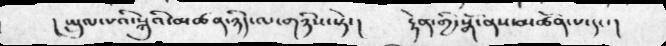།སྤྲུལ་པའི་སྐུའི་མཚན་ཉིད་ལ་གཉིས་སྟེ་།    རྟེན་གྱི་སྒོ་ནས་མཚོན་པ་དང་།
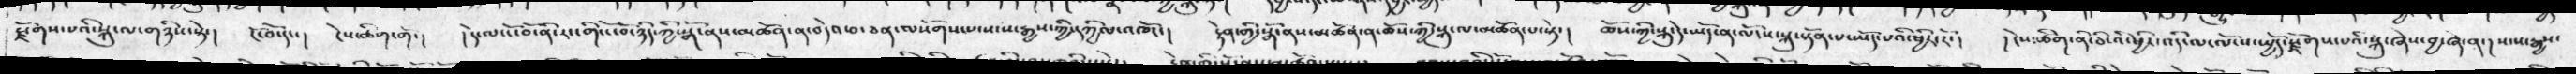རྗོགས་པའི་སྐུ་ལ་གཉིས་སྟེ་། ངོ་བོ་དང་།   ངེས་ཚིག་གོ་།  །དེ་ལ་ངོ་བོ་ནི་རང་གི་ངོ་བོ་ཉིད་ཀྱི་སྒོ་ནས་མཚོན་ན་བདེའ་བ་ཅན་ལསོགས་པ་སངས་རྒྱས་ཀྱི་དཀྱིལ་འཁོང་།  རྟེན་གྱི་སྒོ་ནས་མཚོན་ན་ཆོས་ཀྱི་སྐུ་ལ་མཚོན་པ་སྟེ་།  ཆོས་ཀྱི་སྐུ་དེ་ཡོད་ན་ལོངས་སྐུ་སྟོན་པ་ཡོད་པའི་ཕྱིར་རོ་།   ། ངེས་ཚིག་ནི་ཅི་འི་ཕྱིར་འདི་ལ་ལོངས་ཡྱོད་སྫོགས་པའི་སྐུ་ཞེ་ན་།   སངས་རྒྱས་
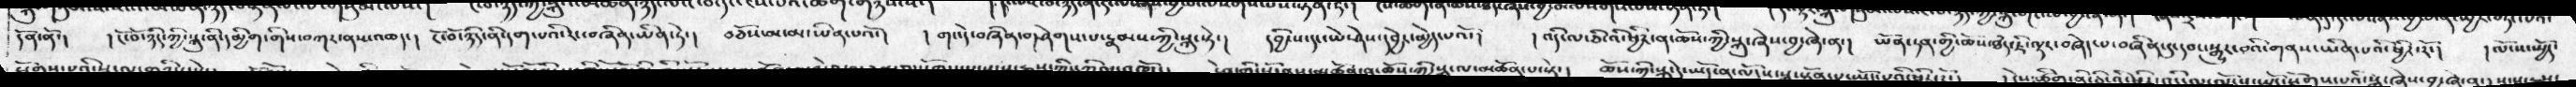དོན་ནོ་།   ། ངོ་བོ་ཉིད་ཀྱི་སྐུ་ནི་དམྱིག་གིས་བཀར་ནས་འཆད་།   ངོ་བོ་ཉིད་ནི་དག་པའི་རང་བཞིན་ཡིན་ཏེ་།  བཅོས་མ་མ་ཡིན་པའོ་།   ། གང་དེ་བཞིན་གཤེགས་པ་རྣམས་ཀྱི་སྐུ་སྟེ་།   དབྱིངས་དང་ཡེ་ཤེས་དབྱེར་མྱེད་པའོ་།   ། འདི་ལ་ཅི་འི་ཕྱིར་ན་ཆོས་ཀྱི་སྐུ་ཞེས་བྱ་ཞེ་ན་།   ཡོན་ཏན་གྱི་ཆོས་ཐཾད་ཇི་ལྟར་བཞེད་པ་བཞེད་པ་བཞིན་དུ་དབང་སྒྱུར་བའི་གནས་ཡིན་པའི་ཕྱིར་རོ་།  ། ལོངས་ཡྱོད་
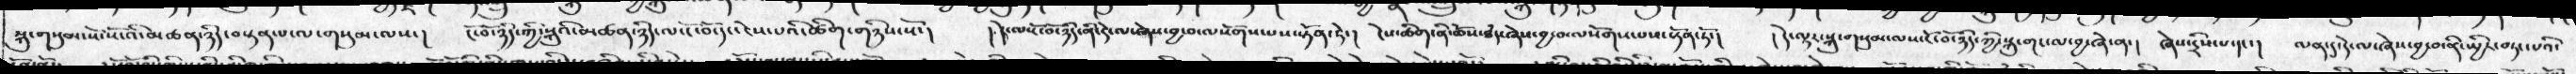སྐུ་གསུམ་སོ་སོ་འི་མཚན་ཉིད་བསྟན་པ་ལ་གསུམ་ལས་།   ངོ་བོ་ཉིད་གྱི་སྐུའི་མཚན་ཉིད་ལ་ངོ་བོ་དང་ངེས་པའི་ཚིག་གཉིས་སོ་།  ། དེ་ལ་ངོ་བོ་ཉིད་ནི་དེ་ལ་ཞེས་བྱ་བ་ལསོགས་པས་སྟོན་ཏེ་།   ངེས་ཚིག་ནི་ཆོས་ཐཾད་ཞེས་བྱ་བ་ལསོགས་པས་སྟོན་ཏོ་།   །  དེ་ལྟར་སྐུ་གསུམ་ལས་ངོ་བོ་ཉིད་ཀྱི་སྐུ་གང་ལ་བྱ་ཞེ་ན་།   ཞེས་དྲིས་པ་དང་།   ལན་དུ་དེ་ལ་ཞེས་བྱ་བ་ནི་ཡྱིར་བཏང་པའི་
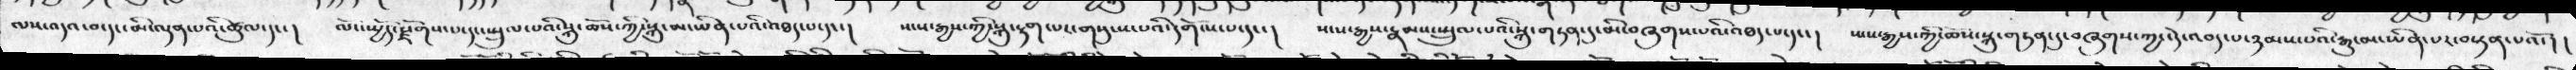ལས་འདའ་བ་དང་མི་ལྡན་པའི་ཚུལ་དང་།  ལོངས་སྤྱོད་རྫོགས་པ་དང་སྤྲུལ་པའི་སྐུ་ཆོས་ཀྱི་སྐུ་མ་ཡིན་པའི་འཐད་པ་དང་།  སངས་རྒྱས་ཀྱི་སྐུ་རྟག་པར་གསུངས་པའི་དགོངས་པ་དང་།   སངས་རྒྱས་རྣམས་སྤྲུལ་པའི་སྐུ་གཏན་དུ་མི་བཞུགས་པའི་འཐད་པ་དང་།  སངས་རྒྱས་ཀྱི་ཆོས་སྐུ་གཏན་དུ་བཞུགས་ཀྱང་དེ་འབད་པ་ཉམས་པའི་རྒྱུ་མ་ཡིན་པར་བསྟན་པའོ་། །
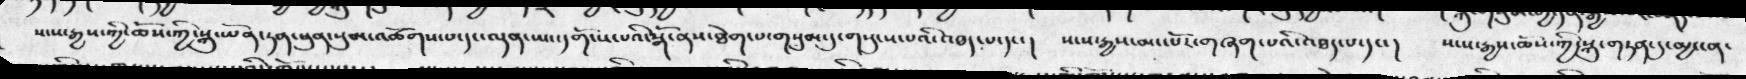སངས་རྒྱས་ཀྱི་ཆོས་ཀྱི་སྐུ་ཡོན་ཏན་ཕུན་སུམ་འཚོགས་པ་དང་ལྡན་ཡང་དགོངས་པའི་སྒོ་ནས་ཐེག་པ་གསུམ་དུ་གསུངས་པའི་འཐད་པ་དང་།  སངས་རྒྱས་མང་པོར་གཞག་པའི་འཐད་པ་དང་།  སངས་རྒྱས་ཆོས་ཀྱི་སྐུ་གཏན་དུ་མྱ་ངན་
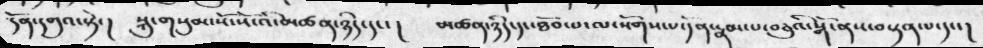དོན་དགུའ་སྟེ་།  སྐུ་གསུམ་སོ་སོ་འི་མཚན་ཉིད་དང་།  མཚན་ཉིད་དང་ཐོབ་པ་ལ་སོགས་པ་དོན་རྣམ་པ་བཅུའི་སྒོ་ནས་བསྟན་པ་དང་།
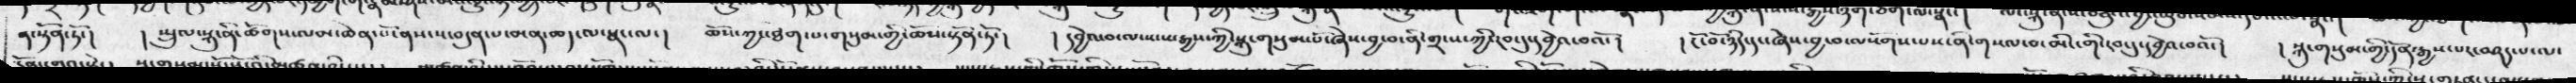ན་སྟོན་ཏོ་།  ། སྤྲུལ་སྐུ་ནི་ཚོགས་ལམ་ཆེན་པོ་ནས་ས་བདུན་པ་མན་ཆད་ལ་སྣང་ལ་།  ཆོས་ཀྱི་ཐེག་པ་གསུམ་གྱི་ཆོས་སྟོན་ཏོ་།  ། དབྱེའ་བ་ལ་སངས་རྒྱས་ཀྱི་སྐུ་གསུམ་པོ་ཞེས་བྱ་བ་ནི་གྲངས་ཀྱི་རབ་དུ་དབྱའ་བའོ་།   ། ངོ་བོ་ཉིད་དང་ཞེས་བྱ་བ་ལསོགས་པས་ནི་གསལ་བ་མིང་གི་རབ་དུ་དབྱེའ་བའོ་།  ། སྐུ་གསུམ་གྱི་དོན་རྒྱས་པར་བཤད་པ་ལ་
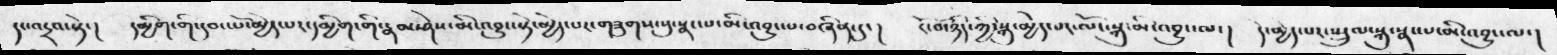དང་འདྲའ་སྟེ་།  དམྱིག་གི་དབང་པོ་མྱེད་པར་དམྱིག་གི་རྣམ་ཤེས་མི་འབྱུང་སྟེ་མྱེད་པར་གཟུགས་སུ་སྣང་པ་མི་འབྱུང་པ་བཞིན་དུ་།  ངོ་བོ་ཉིད་ཀྱི་སྐུ་མྱེད་པར་ལོང་སྐུ་མི་འབྱུང་ལ་།  དེ་མྱེད་པར་སྤྲུལ་སྐུ་སྣང་པ་མི་འབྱུང་ལ་།
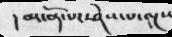། མངོན་པར་ཤེས་པ་ལྔས
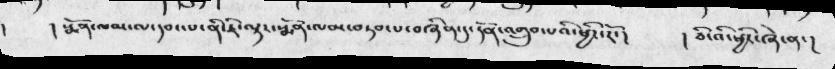།  །སྨོན་ལམ་ལ་དབང་པ་ནི་ཇི་ལྟར་སྨོན་ལམ་བཏབ་པ་བཞིན་དུ་དོན་འགྲུབ་པའི་ཕྱིར་རོ་།   །ཅིའི་ཕྱིར་ཞེ་ན་།
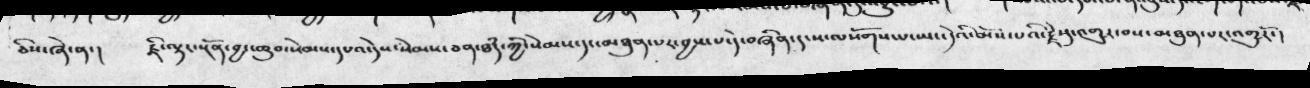ཅིས་ཞེ་ན་།  ཇི་ལྟར་སྔོན་བྱང་ཆུབ་སེམས་དཔའ་དེས་སེམས་ཅན་ཐཾད་ཀྱི་སེམས་དང་མཐུན་པར་བྱས་པ་དེ་བཞིན་དུ་ས་ལསོགས་པ་ཡང་དེའི་མོས་པའི་རྗེས་སུ་འགྱུར་བས་མཐུན་པར་འགྱུརོ་།
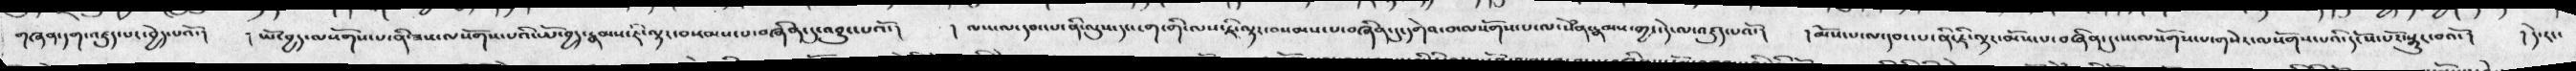གཞན་དག་འཇུད་པར་བྱེད་པའོ་།  ། ཡོ་བྱད་ལསོགས་པ་ནི་ཟས་ལསོགས་པའི་ཡོ་བྱད་རྣམས་ཇི་ལྟར་བསམ་པ་བཞིན་དུ་འབྱུང་པའོ་།  ། ལས་ལ་དབང་པ་ནི་ལུས་དང་ངག་གི་ལས་ཇི་ལྟར་བསམ་པ་བཞིན་དུ་དགེའ་བ་ལསོགས་པ་ལ་སེཾན་རྣམས་ཀྱང་དེ་ལ་འཛུད་པའོ་།  ། མོས་པ་ལ་དབང་པ་ནི་ཇི་ལྟར་མོས་པ་བཞིན་དུ་ས་ལསོགས་པ་གསེར་ལསོགས་པའི་དངོས་པོར་སྒྱུར་པའོ་།   ། དེ་རང་
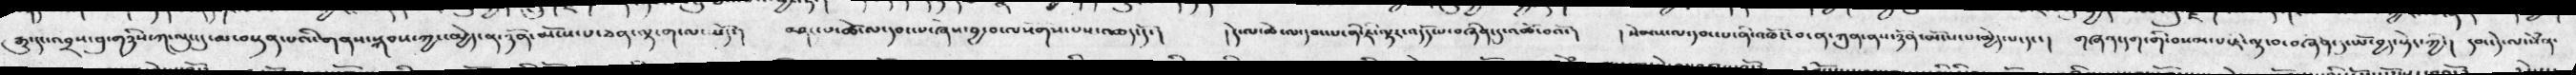རྒྱུ་དང་འབྲས་བུ་གཉིས་ཀ་ལུང་དུ་མ་བསྟན་པའི་གནས་སྐབས་ཀྱང་མྱེད་ན་ཉོན་མོངས་པ་ཅན་ལྟ་ག་ལ་ཕོད་།  བཤད་པ་ཚེ་ལ་དབང་པ་ཞེས་བྱ་བ་ལསོགས་པས་འཆད་དོ་།  ། དེ་ལ་ཚེ་ལ་འདས་པ་ནི་ཇི་ལྟར་འདོད་པ་བཞིན་དུ་འཚོ་བའོ་།   ། སེམས་ལ་དམ་པ་ནི་འཁོར་བ་ན་ཀུན་ནས་ཉོན་མོངས་པ་མྱེད་པ་དང་།  གཞན་དག་གི་བསམ་པ་ཇི་ལྟ་བ་བཞིན་དུ་ཡོ་བྱད་སྟེང་ཀྱི་།  དམ་དེ་ལ་སེཾན་
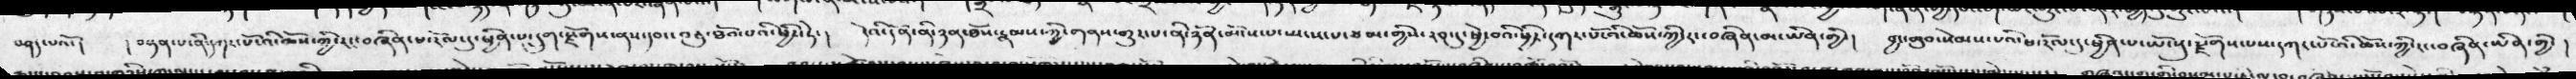བཤད་པའོ་།  ། བསྟན་པ་ནི་དཀར་པོ་འི་ཆོས་ཀྱི་རང་བཞིན་ཕ་རོལ་དུ་ཕྱིན་པ་དྲུག་རྫོགས་ནས་དབང་བཅུ་ཐོབ་པའི་ཕྱིར་ཏེ་།  དེའི་དོན་ནི་ཉན་ཐོས་རྣམས་ཀྱི་གནས་གྱུར་པ་ནི་ཉོན་མོངས་པ་སྤངས་པ་ཙམ་གྱིས་རབ་དུ་སྐྱེ་བའི་ཕྱིར་དཀར་པོ་འི་ཆོས་ཀྱི་རང་བཞིན་མ་ཡིན་གྱི་།  བྱང་ཆུབ་སེམས་པའི་ཕ་རོལ་དུ་ཕྱིན་པ་ཡོངསུ་རྫོགས་པས་དཀར་པོ་འི་ཆོས་ཀྱི་རང་བཞིན་ཡིན་གྱི་ །
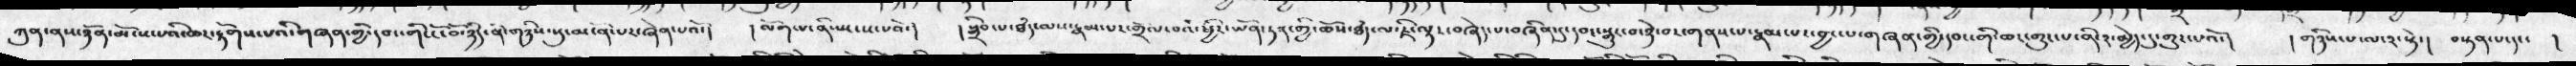ཀུན་ནས་ཉོན་མོངས་པའི་ཆར་རྟོགས་པའི་གཞན་གྱི་དབང་གི་ངོ་བོ་ཉིད་ནི་གཉིས་སུ་མངོན་པར་ཞེན་པའོ་།  །ལོག་པ་ནི་སྤངས་པའོ་།  །སྒྲིབ་པ་ཐཾད་ལས་རྣམ་པར་གྲོལ་བའི་ཕྱིར་ཡོན་ཏན་གྱི་ཆོས་ཐཾད་ལ་ཇི་ལྟར་བཞེད་པ་བཞིན་དུ་དབང་སྒྱུར་བ་ཉེ་བར་གནས་པ་རྣམ་པར་བྱང་པ་གཞན་གྱི་དབང་གི་ཆར་གྱུར་པ་ནི་༢་མྱེད་དུ་གྱུར་པའོ་།  །གཉིས་པ་ལ་༢་སྟེ་།  བསྟན་པ་དང་  །
